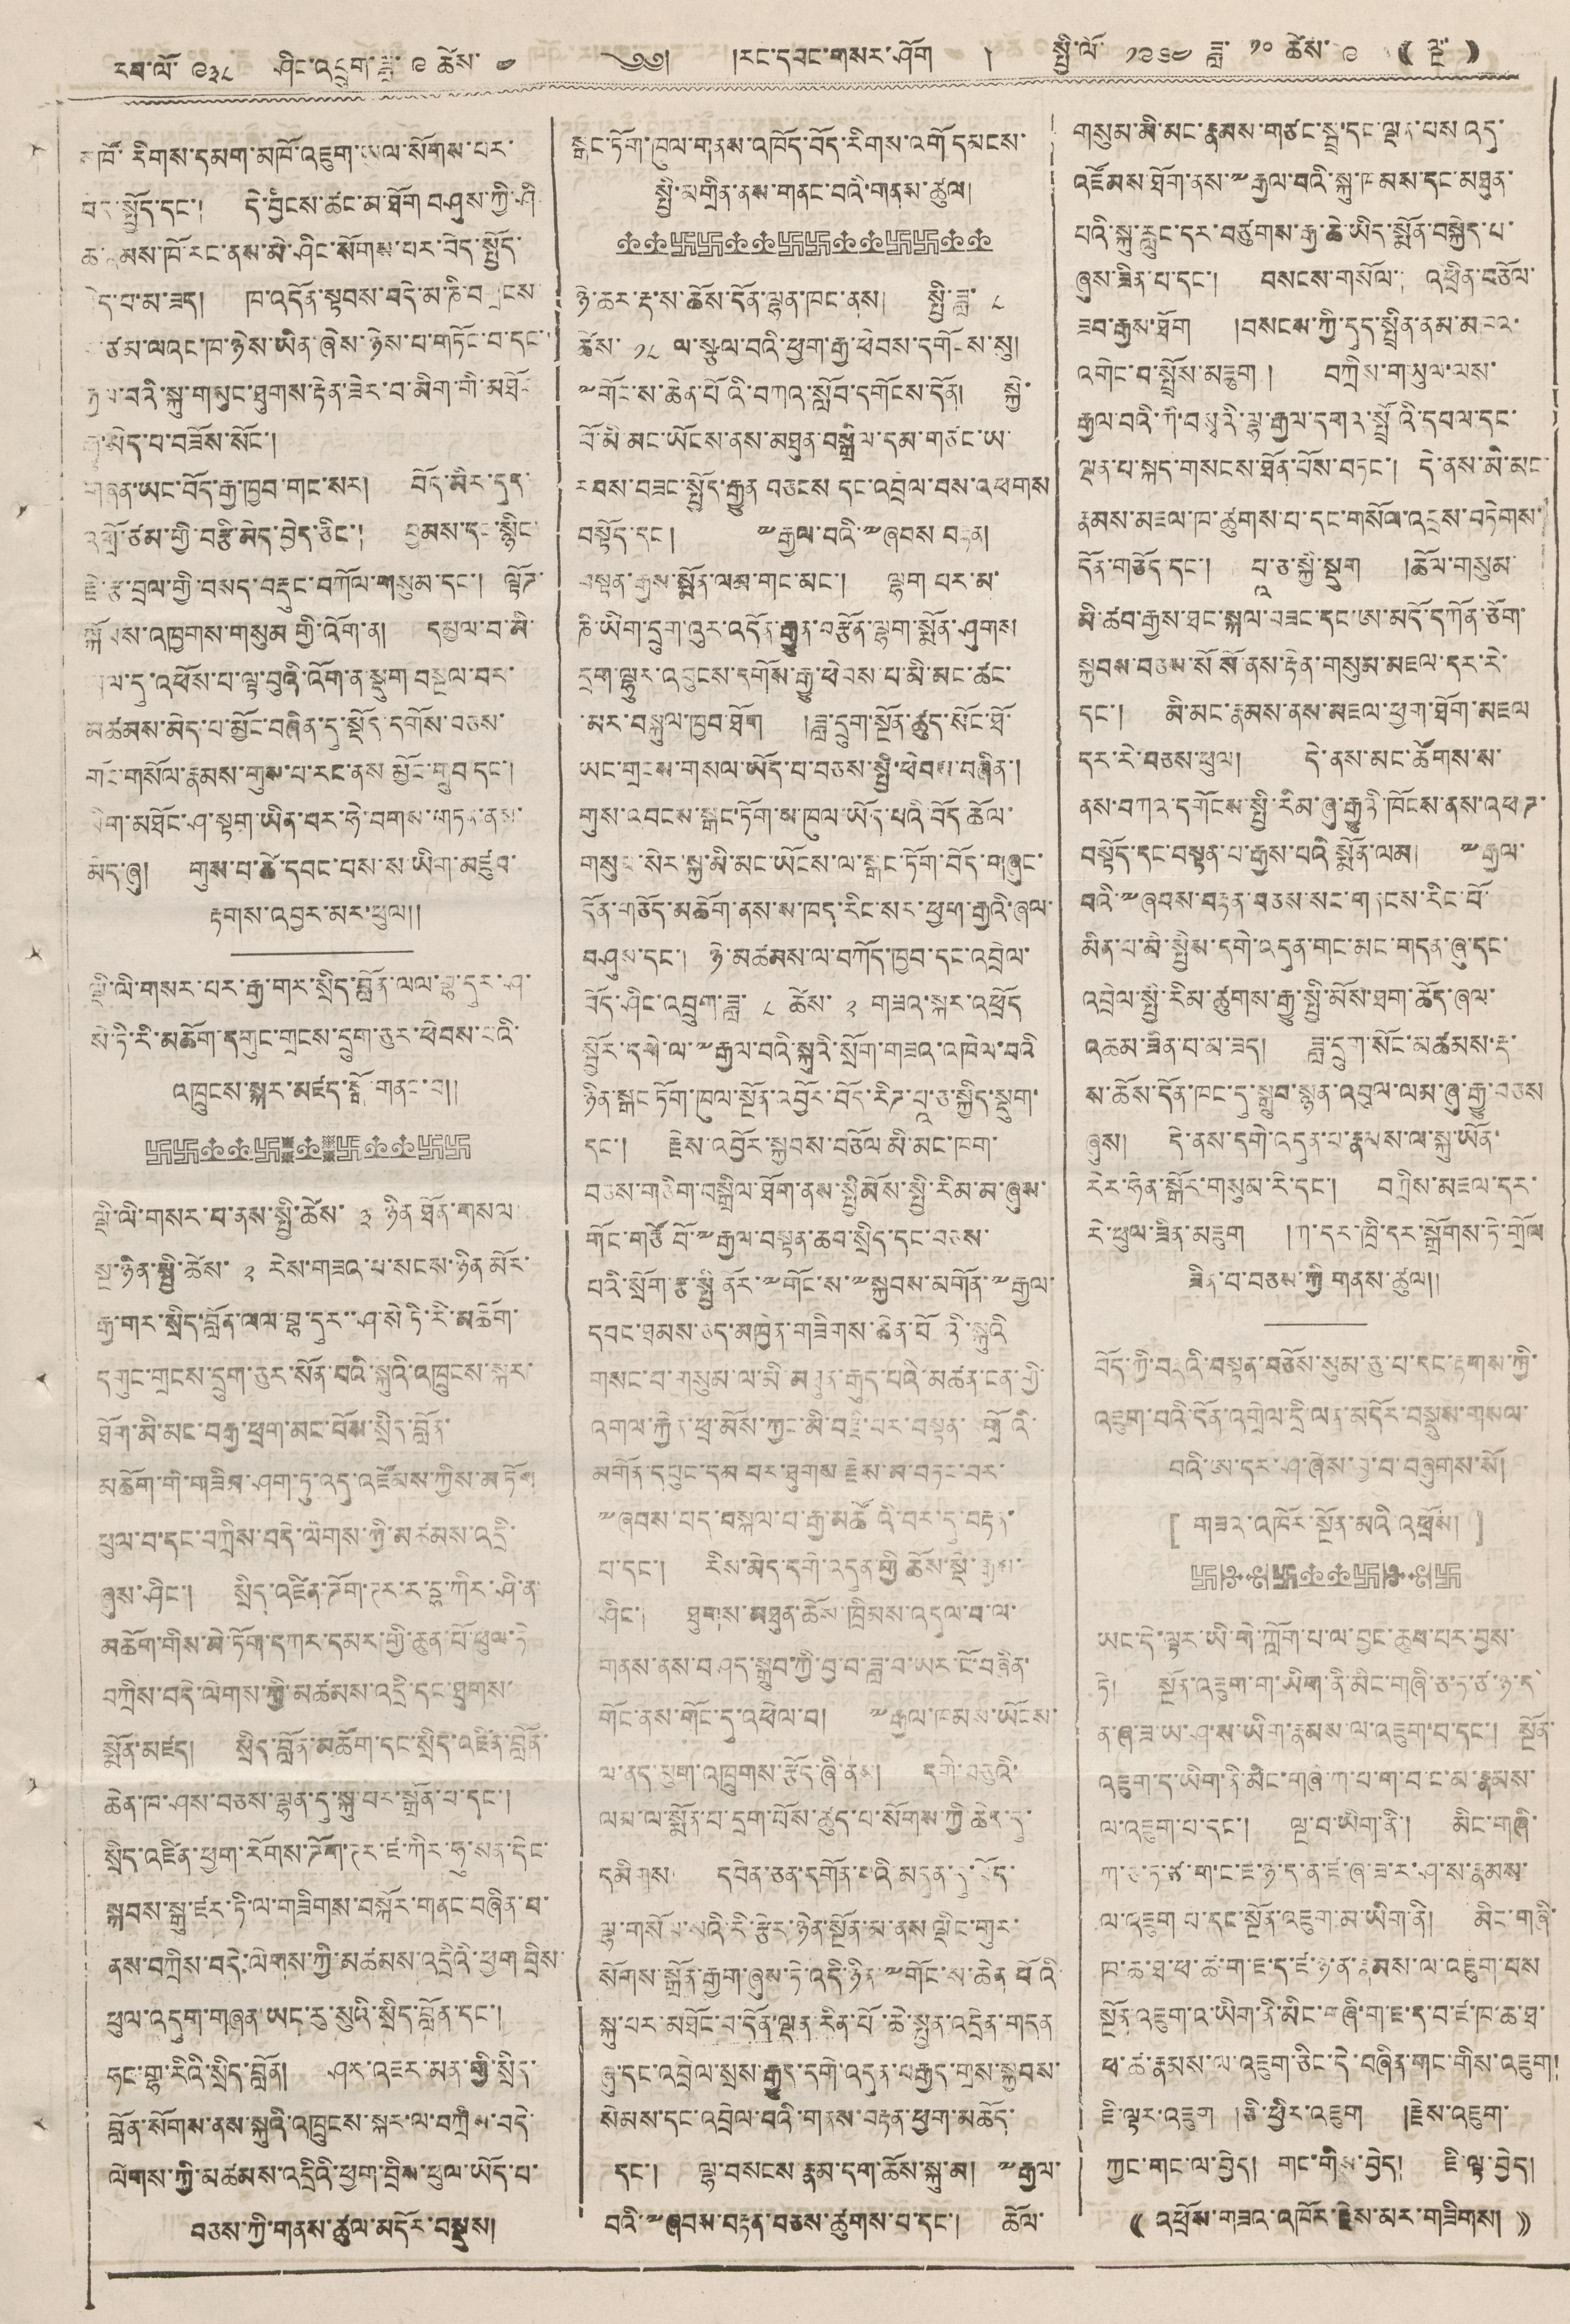རབ་ལོ་ ༩༣༨ ཤིང་འབྲུག་ཟླ་ ༩ ཚེས་ ༤ ༄༅། །རང་དབང་གསར་ཤོག ། སྤྱི་ལོ་ ༡༩༦༤ ཟླ་ ༡༠ ཚེས་ ༩ (( ལྔ་ ))
མཁོ་རིགས་དམག་མཁོ་འཇུག་ཡུལ་སོགས་པར་
བདེ་སྤྱོད་དང་། དེ་བྱིངས་ཚང་མ་ཐོག་བཤུས་ཀྱི་ཤི
ཆ་རྣམས་ཁོ་རང་ནས་མི་ཤིང་སོགས་པར་བེད་སྤྱོད་
བྱེད་པ་མ་ཟད། ཁ་འདོན་སྟབས་བདེ་མ་ཎི་བགྲངས་
བ་ཙམ་ལའང་ཁ་ཉེས་ཡིན་ཞེས་ཉེས་པ་གཏོང་པ་དང་
རྒྱལ་བའི་སྐུ་གསུང་ཐུགས་རྟེན་ཟེར་བ་མིག་གི་མཐོང
རྒྱུ་མེད་པ་བཟོས་སོང་།
གཞན་ཡང་བོད་རྒྱ་ཁབ་གང་སར། བོད་མིར་དུད་
འགྲོ་ཙམ་གྱི་བརྩི་མེད་བྱེད་ཅིང་། བྱམས་དང་སྙིང་
རྗེ་རྩ་བྲལ་གྱི་བསད་བརྡུང་བཀོལ་གསུམ་དང་། ལྟོཊ་
སྐོམས་འཁྱགས་གསུམ གྱི་འོག་ན། དམྱལ་བ་མི་
ཡུལ་དུ་འཕོས་པ་ལྟ་བུའི་འོག་ན་སྡུག བསྔལ་བར་
མཚམས་མེད་པ་མྱོང་བཞིན་དུ་སྡོད་དགོས་བཅས་
གོང་གསོལ་རྣམས་གུས་པ་རང་ནས མྱོང་གྲུབ དང་།
མིག་མཐོང་ཤ་སྟག་ཡིན་པར་ཧེ་བགས་གཏན་ནས་
མེད་ཞུ། གུས་པ་ཚེ་དབང་པས་ས་ཡིག་མཛུབ་
རྟགས་འབྱར་མར་ཕུལ།།
ལྡི་ལི་གསར་པར་རྒྱ་གར་སྲིད་བློན་ལལ་བྷ་དུར་ཤ་
སེ་ཏི་རི་མཆོག་དགུང་གྲངས་དྲུག་ཅུར་ཕེབས་པའི་
འཁྲུངས་སྐར་མཛད་སྒོ་གནང་བ།།
ལྡི་ལི་གསར་བ་ནས་སྤྱི་ཚེས་ ༣ ཉིན་ཐོན་གསལ་
སྔ་ཉིན་སྤྱི་ཚེས་ ༢ རེས་གཟའ་པ་སངས་ཉིན མོར་
རྒྱ་གར་སྲིད་བློན་ལལ་བྷ་དུར་་ཤ་སེ་ཏི་རི་མཆོག་
དགུང་གྲངས་དྲུག་ཅུར་སོན་པའི་སྐུའི་འཁྲུངས་སྐར་
ཐོག་མི་མང་བརྒྱ་ཕྲག་མང་པོས་སྲིད་བློན་
མཆོག་གི་གཟིམ་ཤག་ཏུ་འདུ་འཛོམས་ཀྱིས་མཏོག
ཕུལ་བ་དང་བཀྲིས་བདེ་ལེགས་ཀྱི་མཚམས་འདྲི་
ཞུས་ཤིང་། སྲིད་འཛིན་ཌོག་ཊར་ར་དྷ་ཀིར་ཤི་ན་
མཆོག་གིས་མེ་ཏོག་དཀར་དམར་གྱི་ཆུན་པོ་ཕུལ་ཏེ
བཀྲིས་བདེ་ལེགས་ཀྱི་མཚམས་འདྲི་དང་ཐུགས་
སྨོན་མཛད། སྲིད་བློན་མཆོག་དང་སྲིད་འཛིན་བློན་
ཆེན་ཁ་ཤས་བཅས་ལྷན་དུ་སྐུ་པར་སྒྲོན་པ་དང་།
སྲིད་འཛིན་ཕྱག་རོགས་ཌོག་ཊར་ཛ་ཀིར་ཧུ་སན་དེང་
སྐབས་སྒུ་ཛར་ཏི་ལ་གཟིགས་བསྐོར་གནང་བཞིན་པ་
ནས་བཀྲིས་བདེ་ལེགས་ཀྱི་མཚམས་འདྲིའི་ཕྱག བྲིས་
ཕུལ་འདུག་གཞན་ཡང་རུ་སུའི་སྲིད་བློན་དང་།
ཧང་གྷ་རིའི་སྲིད་བློན། ཤར་འཇར་མན་གྱི་སྲིད་
བློན་སོགས་ནས་སྐུའི་འཁྲུངས་སྐར་ལ་བཀྲིས་བདེ་
ལེགས་ཀྱི་མཚམས་འདྲིའི་ཕྱག་བྲིས་ཕུལ་ཡོད་པ་
བཅས་ཀྱི་གནས་ཚུལ་མདོར་བསྡུས།
སྒང་ཏོག་ཁུལ་གནས་འཁོད་བོད་རིགས་འགོ དམངས་
སྤྱི་མགྲིན་ནས་གནང་བའི་ཚུལ།
ཉེ་ཆར་རྡ་ས་ཆོས་དོན་ལྷན་ཁང་ནས། སྤྱི་ཟླ ༨
ཚེས་ ༡༨ ལ་སྩལ་བའི་ཕྱག་རྒྱ་ཕེབས་དགོངས་སུ།
༸གོང་ས་ཆེན་པོའི་བཀའ་སློབ་དགོངས་དོན། སྐྱེ་
བོ་མི་མང་ཡོངས་ནས་མཐུན་བསྒྲིལ་དམ་གཙང་ཡ་
རབས་བཟང་སྤྱོད་རྒྱུན་བཅངས དང་འབྲལ་བས་འཕགས
བསྟོད་དང་། ༸རྒྱལ་བའི་༸ཞབས བརྟན།
བསྟན་རྒྱས་སྨོན་ལམ་གང་མང་། ལྷག པར་མ་
ཎི་ཡིག་དྲུག་འུག་འདོན་རྒྱུན་བཙོན་ལྷག་སྨོན་ཤུགས
དྲག་ལྷུར་འབུངས་དགོས་རྒྱུ་ཕེབས་པ་མི་མང་ཚང་
་མང་བསྐུལ་ཁྱབ་ཐོག །ཟླ་དྲུག་སྔོན་ཚུད་སོང་ཐོ་
ཡང་གྲངས་གསལ་ཡོད་པ་བཅས་སྤྱི་ཕེབས་བཞིན་།
གུས་འབངས་སྒང་ཏོག་མ་ཁུལ་ཡོད་པའི་བོད་ཆོལ་
གསུམ་སེར་སྐྱ་མི་མང་ཡོངས་ལ་སྒང་ཏོག་བོད་གཞུང་
དོན་གཅོད་མཆོག་ནས་ས་ཁད་རིང་སར་ཕྱག་རྒྱའི་ཞལ་
བཤུས་དང་། ཉེ་མཚམས་ལ་བཀོད་ཁྱབ་དང་འབྲེལ་
བོད་ཤིང་འབྲུག་ཟླ་ ༨ ཚེས་ ༢ གཟའ་སྐར་འཕྲོད
སྦྱོར་དགེ་ལ་༸རྒྱལ་བའི་སྐུའི་སྲོག་གཟའ་འཁེལ་བའི
ཉིན་སྒང ཏོག་ཁུལ་སྔོན་འབྱོར་བོད་རིཊ་པྰ་ཅ་སྐྱིད་སྡུག་
དང་། རྗེས་འབྱོར་སྐྱབས་བཅོལ་མི་མང་ཁག་
བཅས་གཅིག་བསྒྲིལ་ཐོག་ནས་སྤྱི མོས་སྤྱི་རིམ་མ་ཞུས་
གོང་གཙོ བོ་༸རྒྱལ་བསྟན་ཆབ་སྲིད་དང་བཅས་
པའི་སྲོག་རྩ་སྤྱི ནོར་༸གོང་ས་༸སྐྱབས་མགོན་༸རྒྱལ་
དབང་ཐམས་ཅད་མཁྱེན་གཟིགས་ཆེན་པོའི ཉི་སྐུའི
གསང་བ་གསུམ་ལ་མི་མཐུན་རྒུད་པའི་མཚན་ངན་གྱི་
འགལ་རྐྱེན་ཕྲ་མོས་ཀྱང་མི་བརྗི་པར་བསྟན་འགྲོའི་
མགོན་དཔུང་དམ པར་ཐུགས རྗེས་མ་བཏང་བར་
༸ཞབས་པད་བསྐལ་པ་རྒྱ་མཚོའི་བར་དུ་བརྟན་
པ་དང་། རིས་མེད་དགེ་འདུན་གྱི ཆོས་སྡེ་རྒྱས་
ཤིང་། ཐུགས་མཐུན་ཆོས་ཁྲིམས་འདུལ་པ་ལ་
གནས་ནས་བཤད་སྒྲུབ་ཀྱི་བྱ་བ་ཟླ་བ་ཡར་ངོ་བཞིན་
གོང་ནས་གོང་སུ་འཕེལ་བ། ༸རྒྱལ་ཁམས་ཡོངས་
ལ་ནད་མུག་འཁྲུགས་རྩོད་ཞི་ནས། དགེ་བཅུའི་
ལམ་ལ་སྨོན་པ་དྲག་པོས་ཚུད་པ་སོགས་ཀྱི་ཆེད་དུ་
དམིགས། དབེན་ཅན་དགོན་པའི་བདུན་དུ་བོད་
ལྟ་གསོལ་སའི་རི་རྩེར་ཉེན་སྔོན་མ་ནས ལྡིང་གུར་
སོགས་སྒྲོན་རྒྱག་ཞུས་ཏེ་འདི་ཉིན་༸གོང་ས་ཆེན་པོའི་
སྐུ་པར་མཐོང་བ་དོན་ལྡན་རིན་པོ་ཆེ་སྤྱན་འདྲེན་གདན
ཞུ་དང་འབྲེལ་སྲས་རྒྱུད་དགེ་འདུན་བརྒྱད་གྲས་སྐྱབས་
སེམས་དང་འབྲེལ་བའི་གནས་བརྟན་ཕྱག་མཆོད་
དང་། ལྷ་བསངས་རྣམ་དག་ཆོས་སྐུ་མ། ༸རྒྱལ་
བའི་༸ཞབས་བརྟན་བཅས་ཚུགས་པ་དང་། ཆོལ་
གསུམ་མི་མང་རྣམས་གཙང་སྦྲ་དང་ལྡན་པས འདུ་
འཛོམས་ཐོག་ནས་༸རྒྱལ་བའི་སྐུ་ཁམས་དང་མཐུན་
པའི་སྐུ་རླུང་དར་བཙུགས་རྒྱ་ཆེ་ཡིད་སྨོན་བསྐྱེད་པ་
ཞུས་ཟིན་པ་དང་། བསངས་གསོལ་། འཕྲིན་བཅོལ་
ཟབ་རྒྱས་ཐོག །བསངས་ཀྱི་དུད་སྤྲིན་ནམ་མཁའ་
འགེང་བ་སྤྲོས་མཇུག ། བཀྲིས་གཡུལ་ལས་
རྒྱལ་བའི་ཀི་བསྭའི་ལྷ་རྒྱལ་དགའ་སྤྲོའི་དཔལ་དང་
ལྡན་པ་སྐད་གསངས་ཐོན་པོས་བཏང་། དེ་ནས་མི་མང་
རྣམས་མཇལ་ཁ་ཚུགས་པ་དང་གསོལ་འབྲས་བཏེགས་
དོན་གཅོད་དང་། པྰ་ཅ་སྐྱི་སྡུག །ཆོལ་གསུམ་
མ་ཚབ་རྒྱས་ཐང་སྐལ་བཟང་དང་ཨ་མདོ་དཀོན་ཅོག་
སྐྱབས་བཅས་སོ སོ་ནས་རྟེན་གསུམ་མཇལ་དར་རེ་
དང་། མི་མང་རྣམས་ནས་མཇལ་ཕྱག་ཐོག་མཇལ
དར་རེ་བཅས་ཕུལ། དེ་ནས་མང་ཚོགས་ས་
ནས་བཀའ་དགོངས་སྤྱི་རིམ་ཞུ་རྒྱུའི་ཁོངས་ནས་འཕཊ་
བསྟོད་དང་བསྟན་པ་རྒྱས་པའི སྨོན་ལམ། ༸རྒྱལ་
བའི་༸ཞབས་བརྟན་བཅས་སང་གནངས་རིང་པོ་
མིན་པ་མི་སྤྱིས་དགེ་འདུན་གང་མང་གདན་ཞུ་དང་
འབྲེལ་སྤྱི་རིམ་ཚུགས་རྒྱུ་སྤྱི་མོས་ཐག་ཆོད་ཞལ་
འཆམ་ཟིན་པ་མ་ཟད། ཟླ་དྲུག་སོང་མཚམས་རྡ་
ས་ཆོས་དོན་ཁང་དུ་སྒྲུབ་སྙན་འབུལ་ལམ་ཞུ་རྒྱུ་བཅས
ཞུས། དེ་ནས་དགེ་འདུན་པ་རྣམས་ལ་སྐུ་ཡོན་
རེར་ཧེན་སྒོར་རེ་དང་། བཀྲིས་མཇལ་དར་
རེ་ཕུལ་ཟིན་འཇུག །ཀ་དར་ཁྲི་དར་སྒྲོགས་ཏེ་གྲོལ
ཟིན་པ་བཅས་ཀྱི གནས་ཚུལ།།
བོད་ཀྱི་བརྡའི་བསྟན་བཅོས་སུམ་ཅུ་པ་དང་རྟགས་ཀྱི་
འཇུག་པའི་དོན་འགྲེལ་དྲི་ལན་མདོར་བསྡུས་གསལ་
བའི་ཨ་དར་ཤ་ཞེས་བྱ་བ་བཞུགས་སོ།
[ གཟའ་འཁོར་སྔོན་མའི་འཕྲོས། ]
ཡང་དེ་ལྟར་ཡི་གེ་ཀློག་པ་ལ་བྱང་ཆུབ་པར་བྱས་
ཏེ། སྔོན་འཇུག་ག་ཡིག་ནི་མིང་གཞི་ཅ་ཏ་ཙ་ཉ་ད
ན་ཞ་ཟ་ཡ་ཤ་ས་ཡིག་རྣམས་ལ་འཇུག་བ་དང་། སྔོན་
འཇུག་ད་ཡིག་ནི་མིང་གཞི་ཀ་པ་ག་བ་ང་མ་རྣམས་
ལ་འཇུག་པ་དང་། ལྔ་བ་ཡིག་ནི། མིང་གཞི་
ཀ་ཅ་ཏ་ཙ་ག་ང་ཇ་ཉ་ད་ན་ཛ་ཞ་ཟ་ར་ཤ་ས་རྣམས་
ལ་འཇུག པ་དང་སྔོན་འཇུག་མ་ཡིན་ནི། མིང་གཞི་
ཁ་ཆ་ཐ་ཕ་ཚ་ག་ཇ་ད་ཛ་ཉ་ན་རྣམས་ལ་འཇུག་པས
སྔོན་འཇུག་འ་ཡིག་ནི་མིང་གཞི་ག་ཇ་ད་བ་ཛ་ཁ་ཆ་ཐ་
ཕ་ཚ་རྣམས་ལ་འཇུག་ཅིང་དེ་བཞིན་གང་གིས་འཇུག།།
ཇི་ལྟར་འཇུག །ཅི་ཕྱིར་འཇུག །རྗེས་འཇུག་
ཀྱང་གང་ལ་བྱེད། གང་གིས་བྱེད། ཇི་ལྟ་བྱེད།
(( འཕྲོས་གཟའ་འཁོར་རྗེས་མར་གཟིགས། ))
